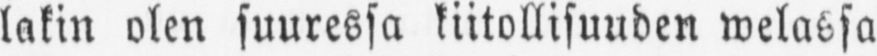lakin olen suuressa kiitollisuuden welassa
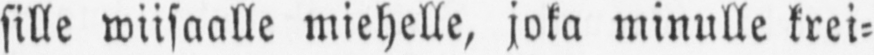sille wiisaalle miehelle, joka minulle krei-
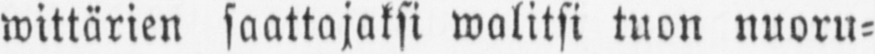wittärien saattajaksi walitsi tuon nuoru-
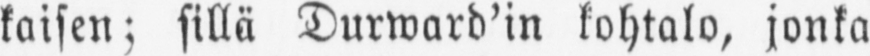kaisen; sillä Durward’in kohtalo, jonka
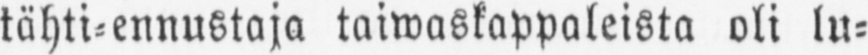tähti-ennustaja taiwaskappaleista oli lu-
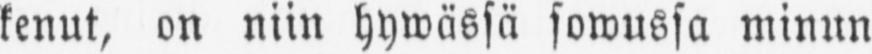kenut, on niin hywässä sowussa minun
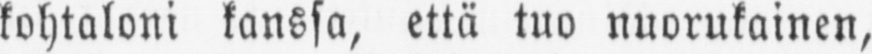kohtaloni kanssa, että tuo nuorukainen,
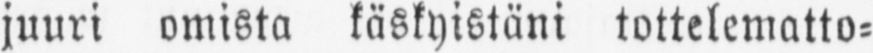juuri omista käskyistäni tottelematto-
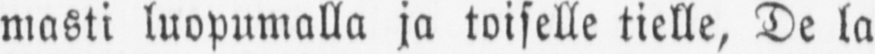masti luopumalla ja toiselle tielle, De la
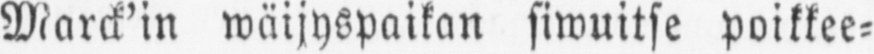Marck’in wäijyspaikan siwuitse poikkee-
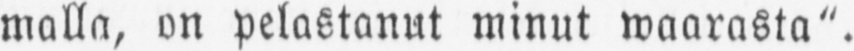malla, on pelastanut minut waarasta".
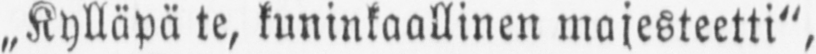„Kylläpä te, kuninkaallinen majesteetti",
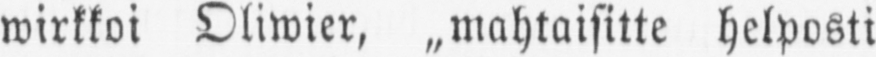wirkkoi Oliwier, „mahtaisitte helposti
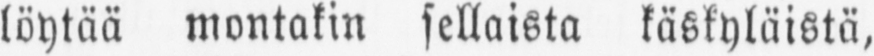löytää montakin sellaista käskyläistä,
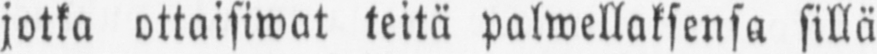jotka ottaisiwat teitä palwellaksensa sillä
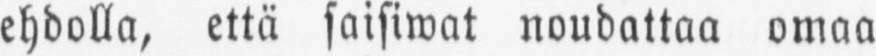ehdolla, että saisiwat noudattaa omaa
